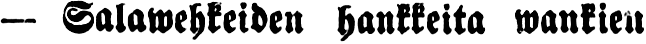— Salawehkeiden hankkeita wankien
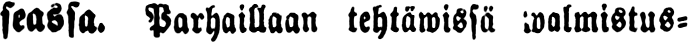seassa. Parhaillaan tehtäwissä walmistus-
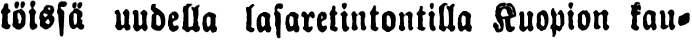töissä uudella lasaretintontilla Kuopion kau-
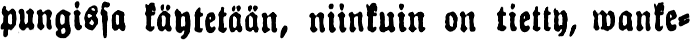pungissa käytetään, niinkuin on tietty, wanke-
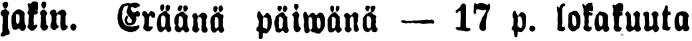jakin. Eräänä päiwänä — 17 p. lokakuuta
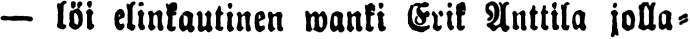— löi elinkautinen wanki Erik Anttila jolla-
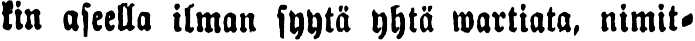kin aseella ilman syytä yhtä wartiata, nimit-
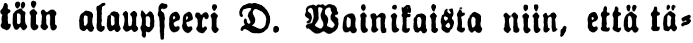täin alaupseeri D. Wainikaista niin, että tä-
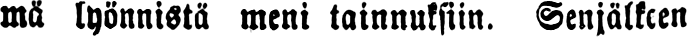mitä lyönnistä meni tainnuksiin. Senjälkeen
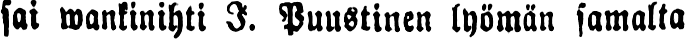sai wankinihti I. Puustinen lyömän samalta
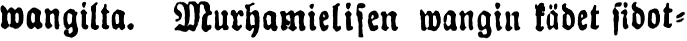wangilta. Murhamielisen wangin kädet sidot-
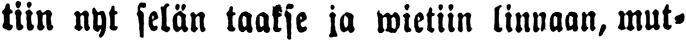tiin nyt selän taakse ja wietiin linnaan, mut-
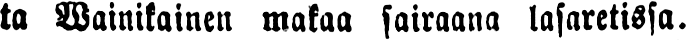ta Wainikainen makaa sairaana lasaretissa.
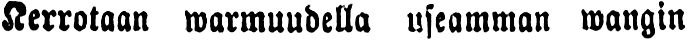Kerrotaan warmuudella useamman wangin
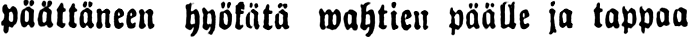päättäneen hyökätä wahtien päälle ja tappaa
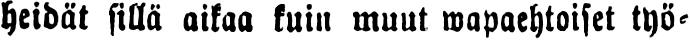heidät sillä aikaa kuin muut wapaehtoiset työ-
